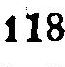118
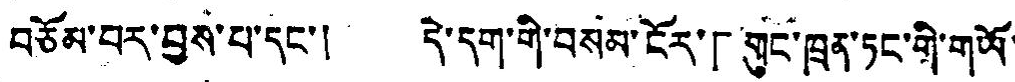བཅོམ་པར་བྱས་པ་དང་། དེ་དག་གིག་བསམ་ངོར་「གུང་ཁྲན་ཏང་གི་གཡོ
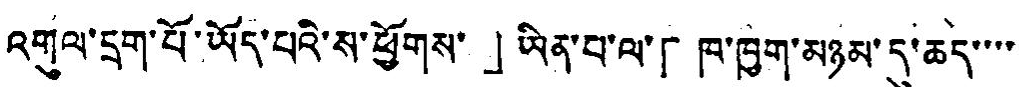འགུལ་དྲག་པོ་ཡོད་པའི་ས་ཕྱོགས་」ཡིན་པ་ལ་「ཁ་ཁྱག་མཉམ་དུ་ཆད་་་་
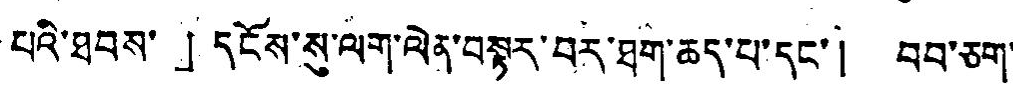པའི་ཐབས་」དངོས་སུ་ལག་ལེན་བསྟར་བར་ཐག་ཆད་པ་དང་། བབ་ཅག་
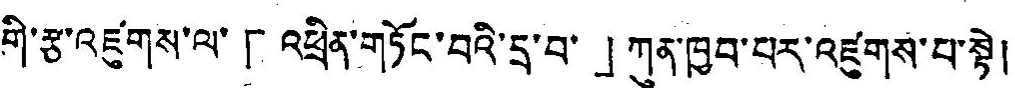གི་རྩ་འཛུགས་ལ་「འཕྲིན་གཏོང་བའི་དྲ་བ་」ཀུན་ཁྱབ་པར་འཛུགས་པ་སྟེ།
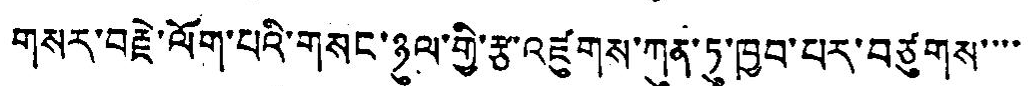གསར་བརྗེ་ལོག་པའི་གསང་ཉུལ་གྱི་རྩ་འཛུགས་ཀུན་ཏུ་ཁྱབ་པར་བཙུགས་་་་
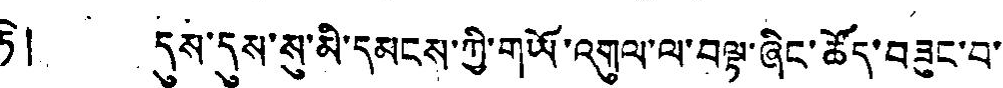ཏེ། དུས་དུས་སུ་མི་དམངས་ཀྱི་གཡོ་འགུལ་ལ་བལྟ་ཞིང་ཚོད་བཟུང་བ་
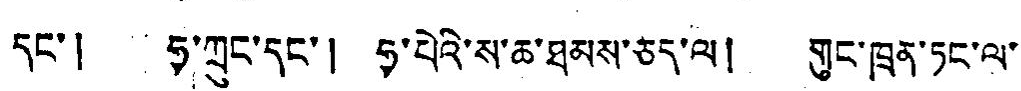དང་།  ཧྭ་ཀྲུང་དང་། ཧྭ་པེའི་ས་ཆ་ཐམས་ཅད་ལ། གུང་ཁྲན་ཏང་ལ་
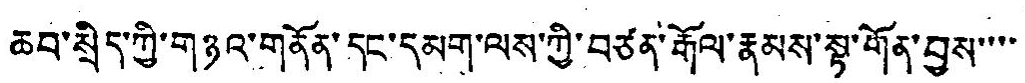ཆབ་སྲིད་གྱི་གཉའ་གནོན་དང་དམག་ལས་ཀྱི་བཙན་རྒོལ་རྣམས་སྟ་གོན་བྱས་་་་
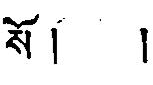སོ། །
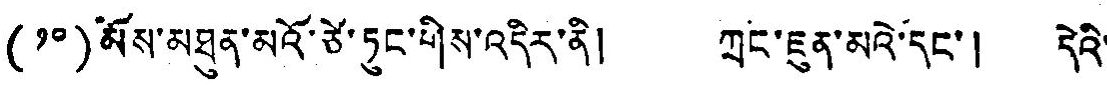(༡༠)མོས་མཐུན་མའོ་ཙེ་ཏུང་གིས་འདིར་ནི། ཀྲང་ཇུན་མའེ་དང་། དེའི་
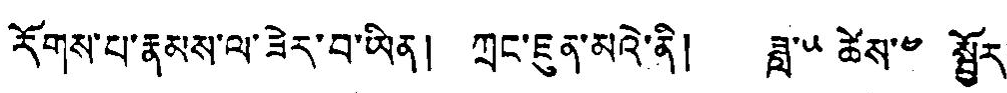རོགས་པ་རྣམས་ལ་ཟེར་བ་ཡིན། ཀྲང་ཇུན་མའེ་ནི། ཟླ་༥ ཚེས་༤ སྦྱོར་
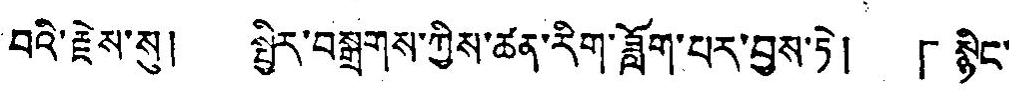བའི་རྗེས་སུ། སྤྱིར་བསྒྲགས་ཀྱིས་ཚན་རིག་ཟློག་པར་བྱས་ཏེ། 「སྙིང་
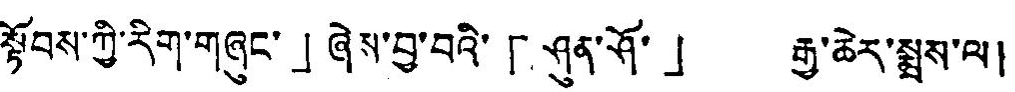སྟོབས་ཀྱི་རིག་གཞུང་」ཞེས་བྱས་བའི་「ཤུན་ཤོ་」 རྒྱ་ཆེར་སྨྲས་ལ།
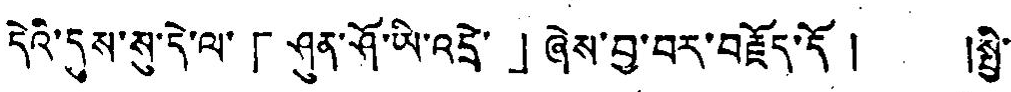དེའི་དུས་སུ་དེ་ལ་「ཤུན་ཤོ་ཡི་འདྲེ་」ཞེས་བྱས་བར་བརྗོད་དོ། །སྤྱི་
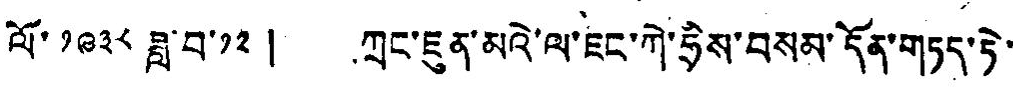ལོ་༡༩༣༨ ཟླ་བ་༡༢། ཀྲང་ཇུན་མའེ་ལ་ཇང་ཀེ་ཧྲིས་བསམ་དོན་གཏད་ཏེ་
